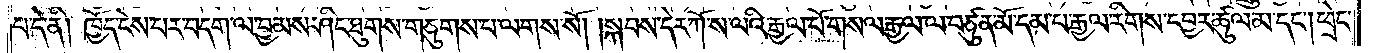པ་དེ་ནི། ཁྱོད་ངེས་པར་བདག་ལ་བྱམས་ཤིང་ཐུགས་གཅུགས་པ་ལགས་སོ། །སྐབས་དེར་ཀོ་ས་ལའི་རྒྱལ་པོ་གསལ་རྒྱལ་ལ་བཙུན་མོ་དམ་པ་རྒྱལ་རིགས་དབྱར་ཚུལ་མ་དང༌། ཕྲེང་
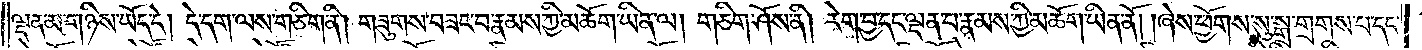ལྡན་མ་གཉིས་ཡོད་དེ། དེ་དག་ལས་གཅིག་ནི། གཟུགས་བཟང་བ་རྣམས་ཀྱི་མཆོག་ཡིན་ལ། གཅིག་ཤོས་ནི། རེག་བྱ་དང་ལྡན་པ་རྣམས་ཀྱི་མཆོག་ཡིན་ནོ། །ཞེས་ཕྱོགས་སུ་སྒྲ་གྲགས་པ་དང་
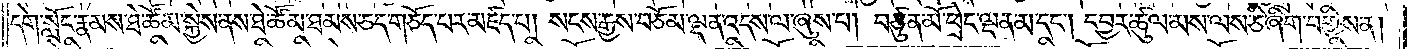དགེ་སློང་རྣམས་ཐེ་ཚོམ་སྐྱེས་ནས་ཐེ་ཚོམ་ཐམས་ཅད་གཅོད་པར་མཛད་པ། སངས་རྒྱས་བཅོམ་ལྡན་འདས་ལ་ཞུས་པ། བཙུན་མོ་ཕྲེང་ལྡན་མ་དང༌། དབྱར་ཚུལ་མས་ལས་ཅི་ཞིག་བགྱིས་ན།
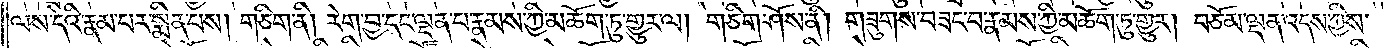ལས་དེའི་རྣམ་པར་སྨིན་པས། གཅིག་ནི། རེག་བྱ་དང་ལྡན་པ་རྣམས་ཀྱི་མཆོག་ཏུ་གྱུར་ལ། གཅིག་ཤོས་ནི། གཟུགས་བཟང་བ་རྣམས་ཀྱི་མཆོག་ཏུ་གྱུར། བཅོམ་ལྡན་འདས་ཀྱིས་
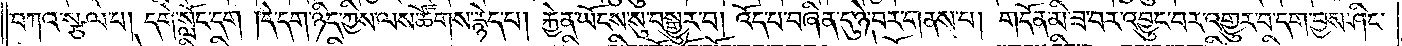བཀའ་སྩལ་པ། དགེ་སློང་དག །དེ་དག་ཉིད་ཀྱིས་ལས་ཚོགས་རྙེད་པ། རྐྱེན་ཡོངས་སུ་བསྒྱུར་བ། འོད་པ་བཞིན་དུ་ཉེ་བར་གནས་པ། གདོན་མི་ཟ་བར་འབྱུང་བར་འགྱུར་བ་དག་བྱས་ཤིང་
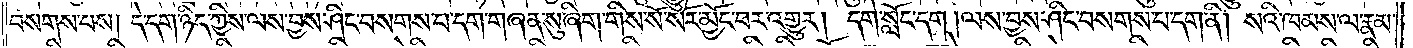བསགས་པས། དེ་དག་ཉིད་ཀྱིས་ལས་བྱས་ཤིང་བསགས་པ་དག་གཞན་སུ་ཞིག་གིས་སོ་སོར་མྱོང་བར་འགྱུར། དགེ་སློང་དག །ལས་བྱས་ཤིང་བསགས་པ་དག་ནི། སའི་ཁམས་ལ་རྣམ་
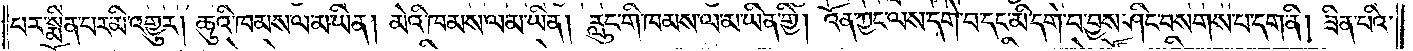པར་སྨིན་པར་མི་འགྱུར། ཆུའི་ཁམས་ལ་མ་ཡིན། མེའི་ཁམས་ལ་མ་ཡིན། རླུང་གི་ཁམས་ལ་མ་ཡིན་གྱི། འོན་ཀྱང་ལས་དགེ་བ་དང་མི་དགེ་བ་བྱས་ཤིང་བསགས་པ་དག་ནི། ཟིན་པའི་
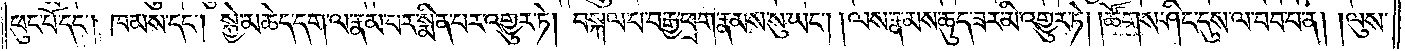ཕུང་པོ་དང༌། ཁམས་དང༌། སྐྱེ་མཆེད་དག་ལ་རྣམ་པར་སྨིན་པར་འགྱུར་ཏེ། བསྐལ་པ་བརྒྱ་ཕྲག་རྣམས་སུ་ཡང༌། །ལས་རྣམས་ཆུད་ཟར་མི་འགྱུར་ཏེ། །ཚོགས་ཤིང་དུས་ལ་བབ་པ་ན། །ལུས་
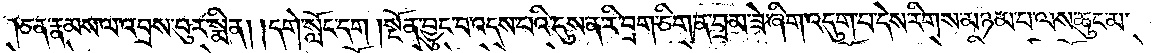ཅན་རྣམས་ལ་འབྲས་བུར་སྨིན། །དགེ་སློང་དག །སྔོན་བྱུང་བ་འདས་པའི་དུས་ན་རི་བྲག་ཅིག་ན་བྲམ་ཟེ་ཞིག་འདུག་པ་དེས་རིགས་མཉམ་པ་ལས་ཆུང་མ་
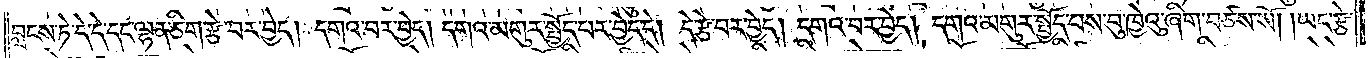བླངས་ཏེ་དེ་དེ་དང་ལྷན་ཅིག་རྩེ་བར་བྱེད། དགའ་བར་བྱེད། དགའ་མགུར་སྤྱོད་པར་བྱེད་དེ། དེ་རྩེ་བར་བྱེད། དགའ་བར་བྱེད། དགའ་མགུར་སྤྱོད་པས་བུ་ཁྱེའུ་ཞིག་བཙས་སོ། །ཡང་རྩེ་
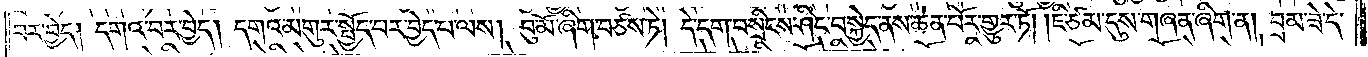བར་བྱེད། དགའ་བར་བྱེད། དགའ་མགུར་སྤྱོད་པར་བྱེད་པ་ལས། བུ་མོ་ཞིག་བཙས་ཏེ། དེ་དག་བསྲིངས་ཤིང་བསྐྱེད་ནས་ཆེན་པོར་གྱུར་ཏོ། །ཇི་ཙམ་དུས་གཞན་ཞིག་ན། བྲམ་ཟེ་དེ་
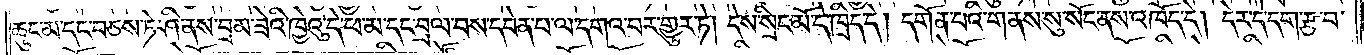ཆུང་མ་དང་བཅས་ཏེ་ཤི་ནས་བྲམ་ཟེའི་ཁྱེའུ་དེ་ཕ་མ་དང་བྲལ་བས་དབེན་པ་ལ་དགའ་བར་གྱུར་ཏེ། དེས་སྲིང་མོ་དེ་ཁྲིད་དེ། དགོན་པའི་གནས་སུ་སོང་ནས་འཁོད་དེ། དེར་དེ་དག་རྩ་བ་
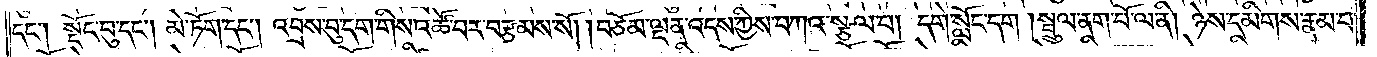དང༌། སྡོང་བུ་དང༌། མེ་ཏོག་དང༌། འབྲས་བུ་དག་གིས་འཚོ་བར་བརྩམས་སོ། །བཅོམ་ལྡན་འདས་ཀྱིས་བཀའ་སྩལ་པ། དགེ་སློང་དག །སྦྲུལ་ནག་པོ་ལ་ནི། ཉེས་དམིགས་རྣམ་པ་
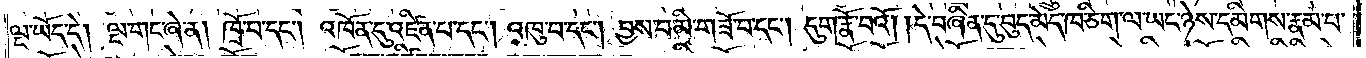ལྔ་ཡོད་དེ། ལྔ་གང་ཞེ་ན། ཁྲོ་བ་དང༌། འཁོན་དུ་འཛིན་པ་དང༌། འཁུ་བ་དང༌། བྱས་པ་མི་གཟོ་བ་དང༌། དུག་རྣོ་བའོ། །དེ་བཞིན་དུ་བུད་མེད་ཁ་ཅིག་ལ་ཡང་ཉེས་དམིགས་རྣམ་པ་
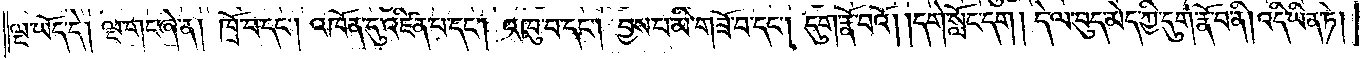ལྔ་ཡོད་དེ། ལྔ་གང་ཞེ་ན། ཁྲོ་བ་དང༌། འཁོན་དུ་འཛིན་པ་དང༌། འཁུ་བ་དང༌། བྱས་པ་མི་གཟོ་བ་དང༌། དུག་རྣོ་བའོ། །དགེ་སློང་དག །དེ་ལ་བུད་མེད་ཀྱི་དུག་རྣོ་བ་ནི། འདི་ཡིན་ཏེ།
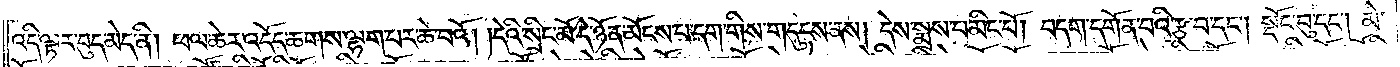འདི་ལྟར་བུད་མེད་ནི། ཕལ་ཆེར་འདོད་ཆགས་ལྷག་པར་ཆེ་བའོ། །དེའི་སྲིང་མོ་དེ་ཉོན་མོངས་པ་དག་གིས་གདུངས་ནས། དེས་སྨྲས་པ་མིང་པོ། བདག་དགོན་པའི་རྩ་བ་དང༌། སྡོང་བུ་དང༌། མེ་
